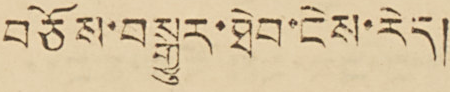བཅོས་བསྒྱུར་ཐེབ་ངེས་རེད།
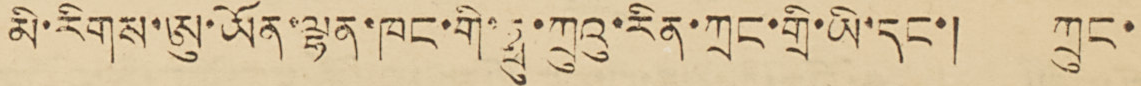མི་རིགས་ཨུ་ཡོན་ལྷན་ཁང་གི་ཧྥུ་ཀྲུའུ་རིང་ཀྲང་གྲི་ཡི་དང་། ཀྲུང་
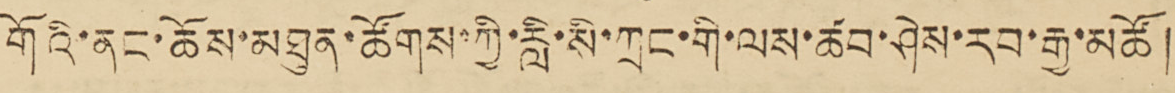གོའི་ནང་ཆོས་མཐུན་ཚོགས་ཀྱི་རླི་སི་ཀྲང་གི་ལས་ཚབ་ཤེས་རབ་རྒྱ་མཚོ།
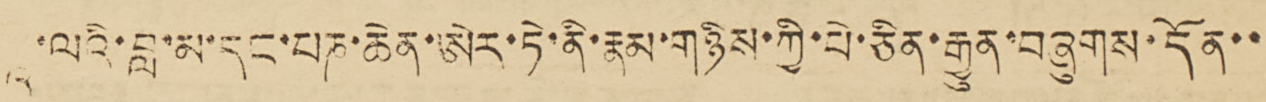ཏཱ་ལའི་བླ་མ་དང་པཎ་ཆེན་ཨེར་ཏེ་ནི་རྣམ་གཉིས་ཀྱི་པེ་ཅིན་རྒྱུན་བཞུགས་དོན་་
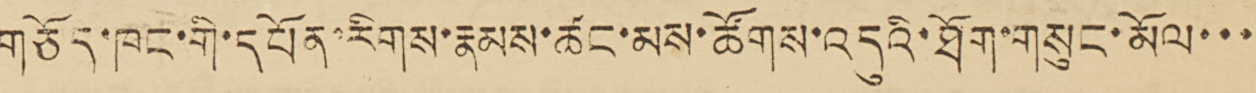གཅོད་ཁང་གི་དཔོན་རིགས་རྣམས་ཚང་མས་ཚོགས་འདུའི་ཐོག་གསུང་མོལ་་་
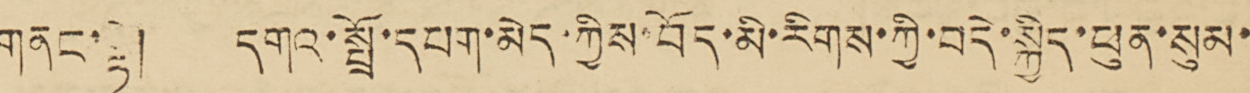གནང་སྟེ། དགའ་སྤྲོ་དཔག་མེད་ཀྱིས་བོད་མི་རིགས་ཀྱི་བདེ་སྐྱིད་ཕུན་སུམ་
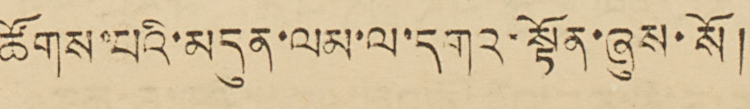ཚོགས་པའི་མདུན་ལམ་ལ་དགའ་སྟོན་ཞུས་སོ །
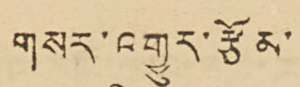གསར་འགྱུར་རྩོམ་
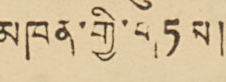མཁན་གྱི་གཏམ།
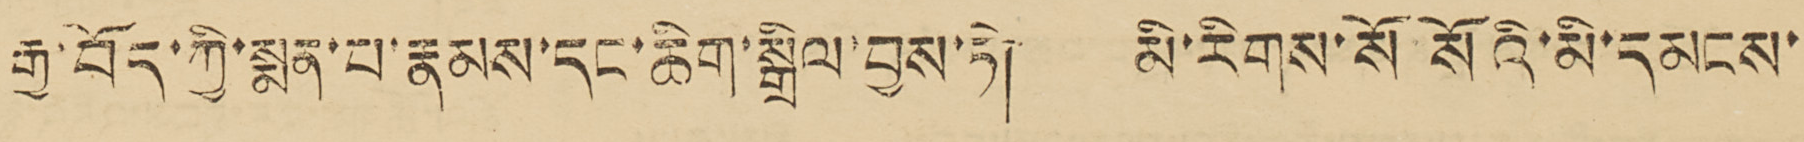རྒྱ་བོད་ཀྱི་སྨན་པ་རྣམས་དང་ཆིག་སྒྲིལ་བྱས་ཏེ། མི་རིགས་སོ སོའི་མི་དམངས་
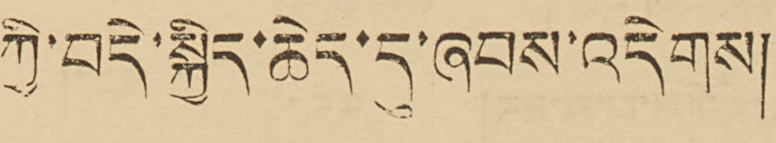ཀྱི་བདེ་སྐྱིད་ཆེད་དུ་ཞབས་འདེགས།
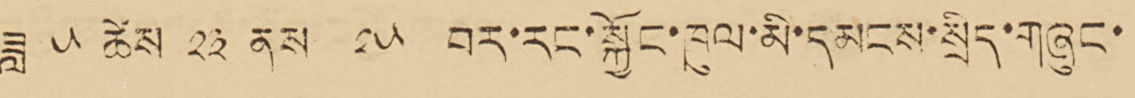ཟླ ༥ ཚེས ༢༣ ནས ༢༥ བར་རང་སྐྱོང་ཁུལ་མི་དམངས་སྲིད་གཞུང་
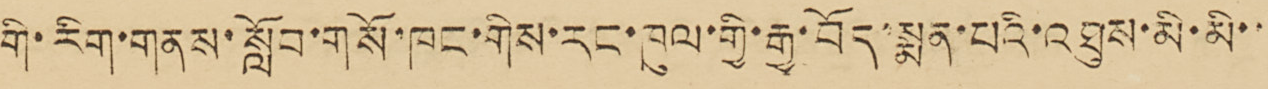གི་རིག་གནས་སློབ་གསོ་ཁང་གིས་རང་ཁུལ་གྱི་རྒྱ་བོད་སྨན་པའི་འཐུས་མི་མི་་
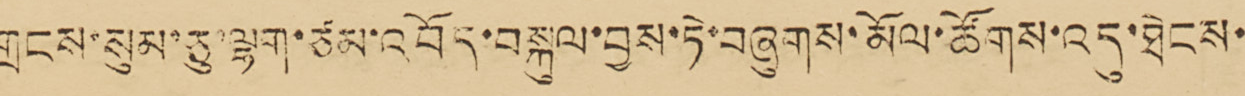གྲངས་སུམ་ཅུ་ལྷག་ཙམ་འབོད་བསྐུལ་བྱས་ཏེ་བཞུགས་མོལ་ཚོགས་འདུ་ཐེངས་
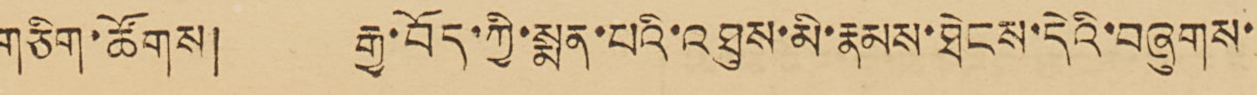གཅིག་ཚོགས། རྒྱ་བོད་ཀྱི་སྨན་པའི་འཐུས་མི་རྣམས་ཐེངས་དེའི་བཞུགས་
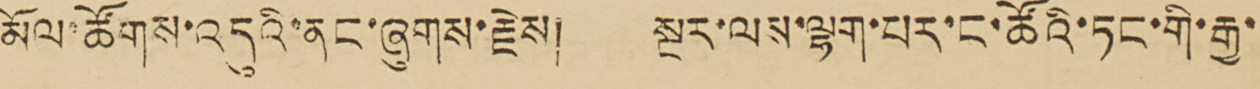མོལ་ཚོགས་འདུའི་ནང་ཞུགས་རྗེས། སྔར་ལས་ལྷག་པར་ང་ཚོའི་ཏང་གི་རྒྱ་
